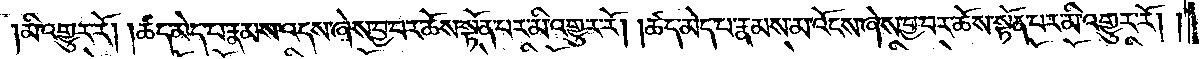མི་འགྱུར་རོ། །ཚད་མེད་པ་རྣམས་འདས་ཞེས་བྱ་བར་ཆོས་སྟོན་པར་མི་འགྱུར་རོ། །ཚད་མེད་པ་རྣམས་མ་འོངས་ཞེས་བྱ་བར་ཆོས་སྟོན་པར་མི་འགྱུར་རོ། །
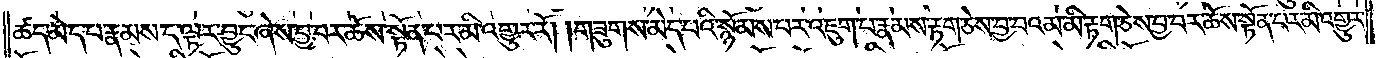ཚད་མེད་པ་རྣམས་ད་ལྟར་བྱུང་ཞེས་བྱ་བར་ཆོས་སྟོན་པར་མི་འགྱུར་རོ། །གཟུགས་མེད་པའི་སྙོམས་པར་འཇུག་པ་རྣམས་རྟག་ཅེས་བྱ་བའམ་མི་རྟག་ཅེས་བྱ་བར་ཆོས་སྟོན་པར་མི་འགྱུར་
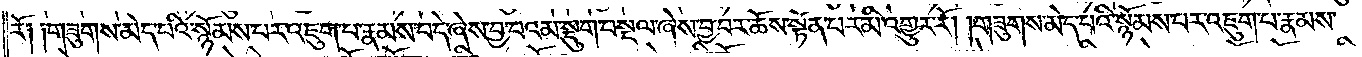རོ༑ ༑གཟུགས་མེད་པའི་སྙོམས་པར་འཇུག་པ་རྣམས་བདེ་ཞེས་བྱ་བའམ་སྡུག་བསྔལ་ཞེས་བྱ་བར་ཆོས་སྟོན་པར་མི་འགྱུར་རོ། །གཟུགས་མེད་པའི་སྙོམས་པར་འཇུག་པ་རྣམས་
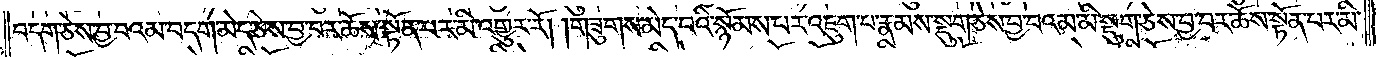བདག་ཅེས་བྱ་བའམ་བདག་མེད་ཅེས་བྱ་བར་ཆོས་སྟོན་པར་མི་འགྱུར་རོ། །གཟུགས་མེད་པའི་སྙོམས་པར་འཇུག་པ་རྣམས་སྡུག་ཅེས་བྱ་བའམ་མི་སྡུག་ཅེས་བྱ་བར་ཆོས་སྟོན་པར་མི་
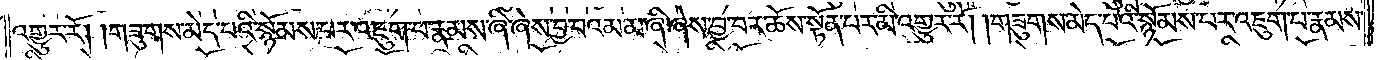འགྱུར་རོ། །གཟུགས་མེད་པའི་སྙོམས་པར་འཇུག་པ་རྣམས་ཞི་ཞེས་བྱ་བའམ་མ་ཞི་ཞེས་བྱ་བར་ཆོས་སྟོན་པར་མི་འགྱུར་རོ། །གཟུགས་མེད་པའི་སྙོམས་པར་འཇུག་པ་རྣམས་
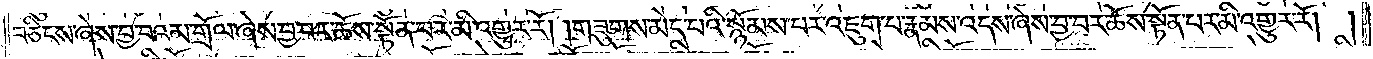བཅིངས་ཞེས་བྱ་བའམ་གྲོལ་ཞེས་བྱ་བར་ཆོས་སྟོན་པར་མི་འགྱུར་རོ། །གཟུགས་མེད་པའི་སྙོམས་པར་འཇུག་པ་རྣམས་འདས་ཞེས་བྱ་བར་ཆོས་སྟོན་པར་མི་འགྱུར་རོ། །
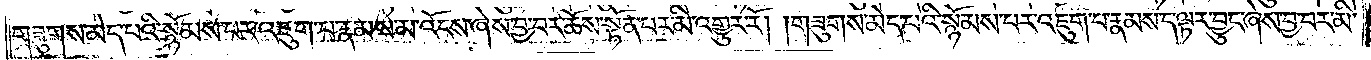གཟུགས་མེད་པའི་སྙོམས་པར་འཇུག་པ་རྣམས་མ་འོངས་ཞེས་བྱ་བར་ཆོས་སྟོན་པར་མི་འགྱུར་རོ། །གཟུགས་མེད་པའི་སྙོམས་པར་འཇུག་པ་རྣམས་ད་ལྟར་བྱུང་ཞེས་བྱ་བར་པར་མི་
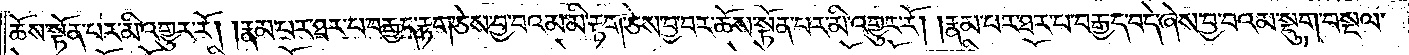ཆོས་སྟོན་པར་མི་འགྱུར་རོ། །རྣམ་པར་ཐར་པ་བརྒྱད་རྟག་ཅེས་བྱ་བའམ་མི་རྟག་ཅེས་བྱ་བར་ཆོས་སྟོན་པར་མི་འགྱུར་རོ། །རྣམ་པར་ཐར་པ་བརྒྱད་བདེ་ཞེས་བྱ་བའམ་སྡུག་བསྔལ་
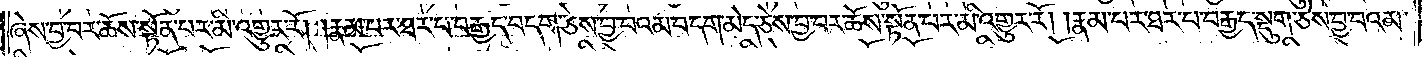ཞེས་བྱ་བར་ཆོས་སྟོན་པར་མི་འགྱུར་རོ། །རྣམ་པར་ཐར་པ་བརྒྱད་བདག་ཅེས་བྱ་བའམ་བདག་མེད་ཅེས་བྱ་བར་ཆོས་སྟོན་པར་མི་འགྱུར་རོ། །རྣམ་པར་ཐར་པ་བརྒྱད་སྡུག་ཅེས་བྱ་བའམ་
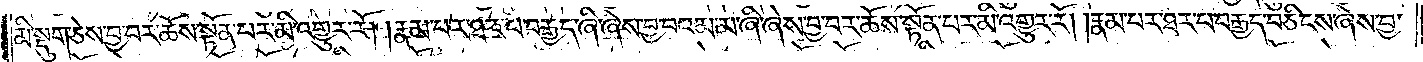མི་སྡུག་ཅེས་བྱ་བར་ཆོས་སྟོན་པར་མི་འགྱུར་རོ། །རྣམ་པར་ཐར་པ་བརྒྱད་ཞི་ཞེས་བྱ་བའམ་མ་ཞི་ཞེས་བྱ་བར་ཆོས་སྟོན་པར་མི་འགྱུར་རོ། །རྣམ་པར་ཐར་པ་བརྒྱད་བཅིངས་ཞེས་བྱ་
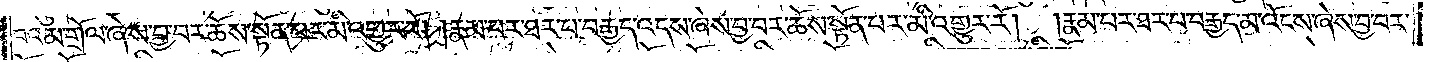བའམ་གྲོལ་ཞེས་བྱ་བར་ཆོས་སྟོན་པར་མི་འགྱུར་རོ། །རྣམ་པར་ཐར་པ་བརྒྱད་འདས་ཞེས་བྱ་བར་ཆོས་སྟོན་པར་མི་འགྱུར་རོ། །རྣམ་པར་ཐར་པ་བརྒྱད་མ་འོངས་ཞེས་བྱ་བར་
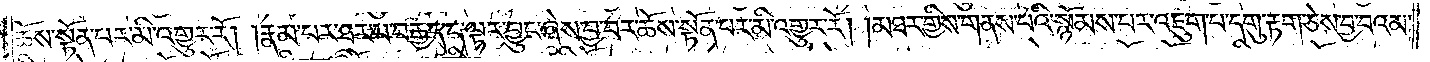ཆོས་སྟོན་པར་མི་འགྱུར་རོ། །རྣམ་པར་ཐར་པ་བརྒྱད་ད་ལྟར་བྱུང་ཞེས་བྱ་བར་ཆོས་སྟོན་པར་མི་འགྱུར་རོ། །མཐར་གྱིས་གནས་པའི་སྙོམས་པར་འཇུག་པ་དགུ་རྟག་ཅེས་བྱ་བའམ་
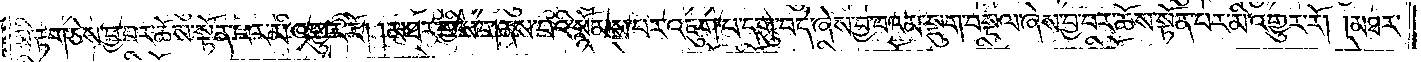མི་རྟག་ཅེས་བྱ་བར་ཆོས་སྟོན་པར་མི་འགྱུར་རོ། །མཐར་གྱིས་གནས་པའི་སྙོམས་པར་འཇུག་པ་དགུ་བདེ་ཞེས་བྱ་བའམ་སྡུག་བསྔལ་ཞེས་བྱ་བར་ཆོས་སྟོན་པར་མི་འགྱུར་རོ། །མཐར་
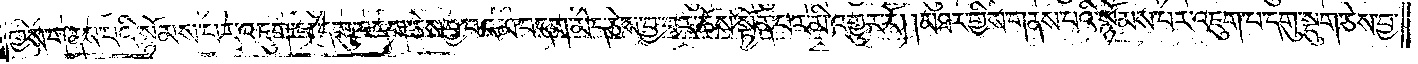གྱིས་གནས་པའི་སྙོམས་པར་འཇུག་པ་དགུ་བདག་ཅེས་བྱ་བའམ་བདག་མེད་ཅེས་བྱ་བར་ཆོས་སྟོན་པར་མི་འགྱུར་རོ། །མཐར་གྱིས་གནས་པའི་སྙོམས་པར་འཇུག་པ་དགུ་སྡུག་ཅེས་བྱ་
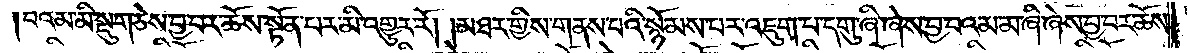བའམ་མི་སྡུག་ཅེས་བྱ་བར་ཆོས་སྟོན་པར་མི་འགྱུར་རོ། །མཐར་གྱིས་གནས་པའི་སྙོམས་པར་འཇུག་པ་དགུ་ཞི་ཞེས་བྱ་བའམ་མ་ཞི་ཞེས་བྱ་བར་ཆོས་
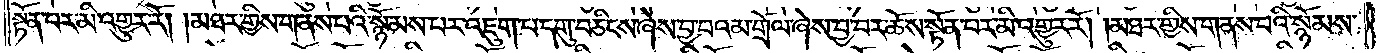སྟོན་པར་མི་འགྱུར་རོ། །མཐར་གྱིས་གནས་པའི་སྙོམས་པར་འཇུག་པ་དགུ་བཅིངས་ཞེས་བྱ་བའམ་གྲོལ་ཞེས་བྱ་བར་ཆོས་སྟོན་པར་མི་འགྱུར་རོ། །མཐར་གྱིས་གནས་པའི་སྙོམས་
